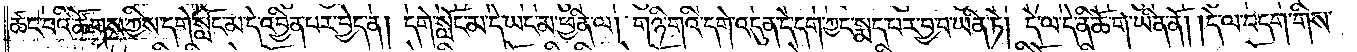ཚང་བའི་ཚོགས་ཀྱིས་དགེ་སློང་མ་དེ་འབྱིན་པར་བྱེད་ན། དགེ་སློང་མ་དེ་ཡང་མ་ཕྱིན་ལ། གཉི་གའི་དགེ་འདུན་དེ་དག་ཀྱང་སྨད་པར་བྱ་བ་ཡིན་ཏེ། དེ་ལ་དེ་ནི་ཆོ་ག་ཡིན་ནོ། །དེ་ལ་བདག་གིས་
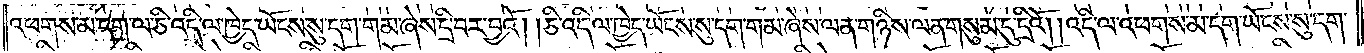འཕགས་མ་དག་ལ་ཅི་འདི་ལ་ཁྱེད་ཡོངས་སུ་དག་གམ་ཞེས་དྲི་བར་བྱའོ། །ཅི་འདི་ལ་ཁྱེད་ཡོངས་སུ་དག་གམ་ཞེས་ལན་གཉིས་ལན་གསུམ་དུ་དྲིའོ། །འདི་ལ་འཕགས་མ་དག་ཡོངས་སུ་དག་
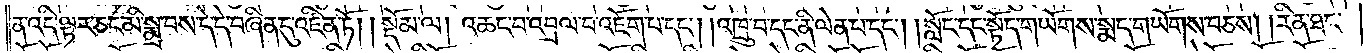ན་འདི་ལྟར་ཅང་མི་སྨྲ་བས་དེ་དེ་བཞིན་དུ་འཛིན་ཏོ།    །སྡོམ་ལ། འཆང་བ་འབྲལ་བ་འཇོག་པ་དང༌། འཁྲུ་བ་དང་ནི་ལེན་པ་དང༌། །སློང་དང་སྟོད་གཡོགས་སྨད་གཡོགས་བཅས། །རིན་ཐང་
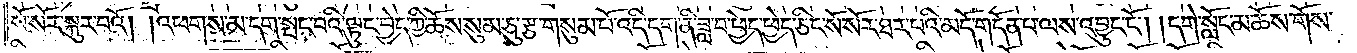སོ་སོར་སྐུར་བའོ། །འཕགས་མ་དག་སྤང་བའི་ལྟུང་བྱེད་ཀྱི་ཆོས་སུམ་ཅུ་རྩ་གསུམ་པོ་འདི་དག་ནི་ཟླ་བ་ཕྱེད་ཕྱེད་ཅིང་སོ་སོར་ཐར་པའི་མདོ་གདོན་པ་ལས་འབྱུང་ངོ༌། །དགེ་སློང་མ་ཆོས་གོས་
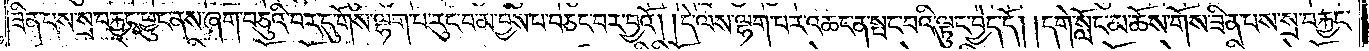ཟིན་པས་སྲ་བརྐྱང་བྱུང་ནས་ཞག་བཅུའི་བར་དུ་གོས་ལྷག་པ་རུང་བ་མ་བྱས་པ་བཅང་བར་བྱའོ། །དེ་ལས་ལྷག་པར་འཆང་ན་སྤང་བའི་ལྟུང་བྱེད་དོ། །དགེ་སློང་མ་ཆོས་གོས་ཟིན་པས་སྲ་བརྐྱང་
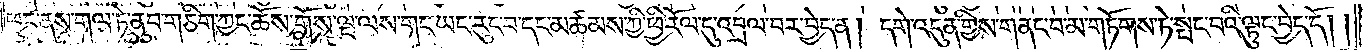ཕྱུང་ནས་གལ་ཏེ་ནུབ་གཅིག་ཀྱང་ཆོས་གོས་ལྔ་ལས་གང་ཡང་རུང་བ་དང་མཚམས་ཀྱི་ཕྱི་རོལ་དུ་འབྲལ་བར་བྱེད་ན། དགེ་འདུན་གྱིས་གནང་བ་མ་གཏོགས་ཏེ་སྤང་བའི་ལྟུང་བྱེད་དོ། །
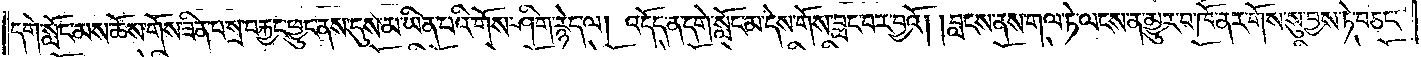དགེ་སློང་མས་ཆོས་གོས་ཟིན་པ་སྲ་བརྐྱང་ཕྱུང་ནས་དུས་མ་ཡིན་པའི་གོས་ཤིག་རྙེད་ལ། འདོད་ན་དགེ་སློང་མ་དེས་གོས་བླང་བར་བྱའོ། །བླངས་ནས་གལ་ཏེ་ལངས་ན་མྱུར་བ་ཁོ་ནར་གོས་སུ་བྱས་ཏེ་བཅང་
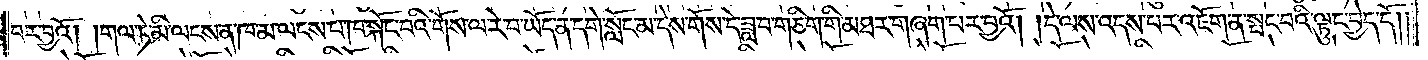བར་བྱའོ། །གལ་ཏེ་མི་ལངས་ན་ཁ་མ་ལངས་པ་ཁ་སྐོང་བའི་གོས་ལ་རེ་བ་ཡོད་ན་དགེ་སློང་མ་དེས་གོས་དེ་ཟླ་བ་གཅིག་གི་མཐར་གཞག་པར་བྱའོ། །དེ་ལས་འདས་པར་འཇོག་ན་སྤང་བའི་ལྟུང་བྱེད་དོ། །
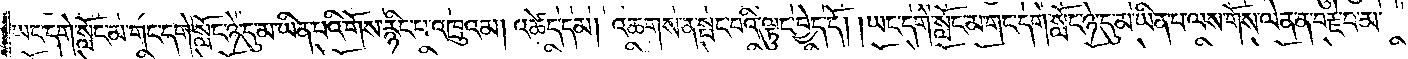ཡང་དགེ་སློང་མ་གང་དགེ་སློང་ཉེ་དུ་མ་ཡིན་པའི་གོས་རྙིང་པ་འཁྲུའམ། འཚེད་དམ། འཆགས་ན་སྤང་བའི་ལྟུང་བྱེད་དོ། །ཡང་དགེ་སློང་མ་གང་དགེ་སློང་ཉེ་དུ་མ་ཡིན་པ་ལས་གོས་ལེན་ན་བརྗེ་བ་མ་
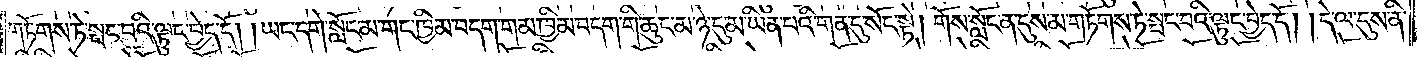གཏོགས་ཏེ་སྤང་བའི་ལྟུང་བྱེད་དོ། །ཡང་དགེ་སློང་མ་གང་ཁྱིམ་བདག་གམ་ཁྱིམ་བདག་གི་ཆུང་མ་ཉེ་དུ་མ་ཡིན་པའི་གན་དུ་སོང་སྟེ། གོས་སློང་ན་དུས་མ་གཏོགས་ཏེ་སྤང་བའི་ལྟུང་བྱེད་དོ། །དེ་ལ་དུས་ནི་
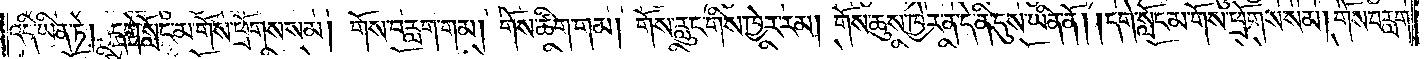འདི་ཡིན་ཏེ། དགེ་སློང་མ་གོས་ཕྲོགས་སམ། གོས་བརླག་གམ། གོས་ཚིག་གམ། གོས་རླུང་གིས་ཁྱེར་རམ། གོས་ཆུས་ཁྱེར་ན་དེ་ནི་དུས་ཡིན་ནོ། །དགེ་སློང་མ་གོས་ཕྲོགས་སམ། གོས་བརླག་
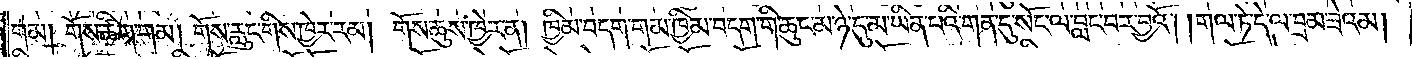གམ། གོས་ཚིག་གམ། གོས་རླུང་གིས་ཁྱེར་རམ། གོས་ཆུས་ཁྱེར་ན། ཁྱིམ་བདག་གམ་ཁྱིམ་བདག་གི་ཆུང་མ་ཉེ་དུ་མ་ཡིན་པའི་གན་དུ་སོང་ལ་བླང་བར་བྱའོ། །གལ་ཏེ་དེ་ལ་བྲམ་ཟེའམ།
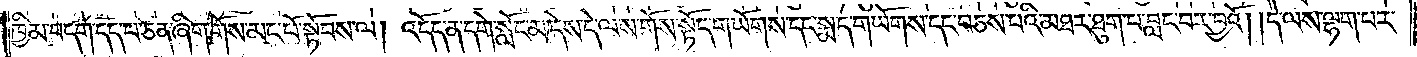ཁྱིམ་བདག་དད་པ་ཅན་ཞིག་གོས་མང་པོ་སྟོབས་ལ། འདོད་ན་དགེ་སློང་མ་དེས་དེ་ལས་གོས་སྟོད་གཡོགས་དང་སྨད་གཡོགས་དང་བཅས་པའི་མཐར་ཐུག་པ་བླང་བར་བྱའོ། །དེ་ལས་ལྷག་པར་
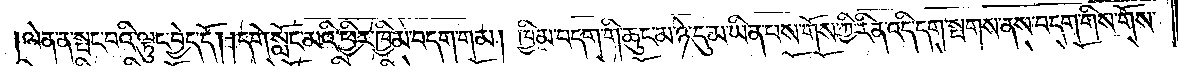།ལེན་ན་སྤང་བའི་ལྟུང་བྱེད་དོ། །དགེ་སློང་མའི་ཕྱིར་ཁྱིམ་བདག་གམ། ཁྱིམ་བདག་གི་ཆུང་མ་ཉེ་དུ་མ་ཡིན་པས་གོས་ཀྱི་རིན་འདི་དག་སྤགས་ནས་བདག་གིས་གོས་
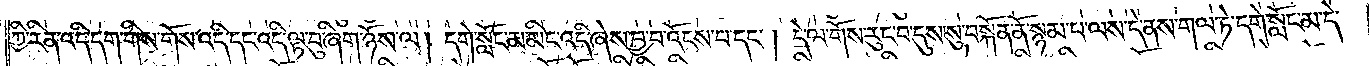ཀྱི་རིན་འདི་དག་གིས་གོས་འདི་དང་འདི་ལྟ་བུ་ཞིག་ཉོས་ལ། དགེ་སློང་མ་མིང་འདི་ཞེས་བྱ་བ་འོངས་པ་དང༌། དེ་ལ་གོས་རུང་བ་དུས་སུ་བསྐོན་ནོ་སྙམ་པ་ལས་དེ་ནས་གལ་ཏེ་དགེ་སློང་མ་དེ་
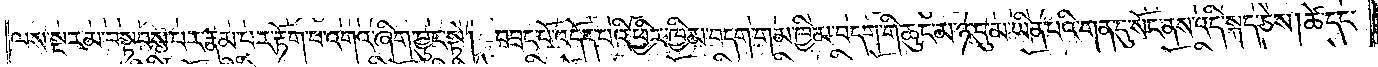ལས་སྔར་མ་བསྟབས་པར་རྣམ་པར་རྟོག་པ་འགའ་ཞིག་བྱུང་སྟེ། བཟང་པོ་འདོད་པའི་ཕྱིར་ཁྱིམ་བདག་གམ་ཁྱིམ་བདག་གི་ཆུང་མ་ཉེ་དུ་མ་ཡིན་པའི་གན་དུ་སོང་ནས་འདི་སྐད་ཅེས། ཚེ་དང་
